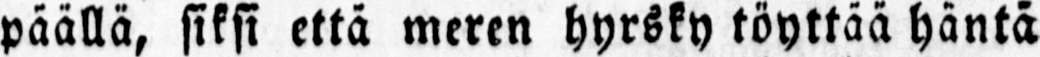päällä, siksi että meren hyrsky täyttää häntä
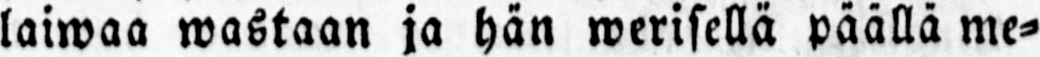laiwaa wastaan ja hän werisellä päällä me-
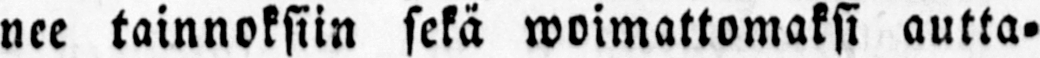nee tainnoksiin sekä woimattomaksi autta-
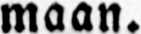maan.
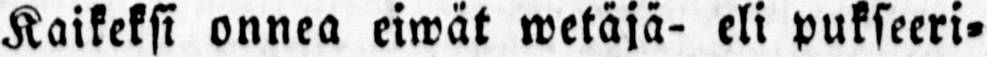Kaikeksi onnea eiwät wetäjä- eli pukseeri-
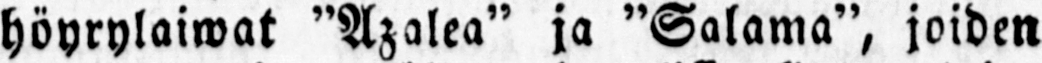höyrylaiwat "Azalea" ja "Salama", joiden
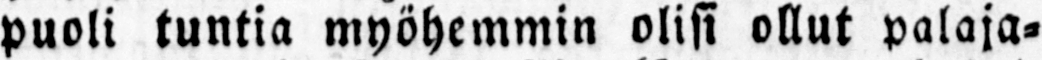puoli tuntia myöhemmin olisi ollut palaja-
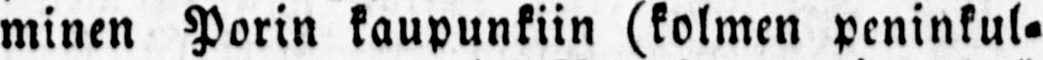minen Porin kaupunkiin (kolmen peninkul-
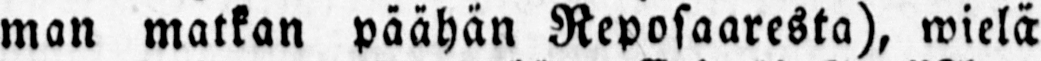man matkan päähän Reposaaresta), wielä
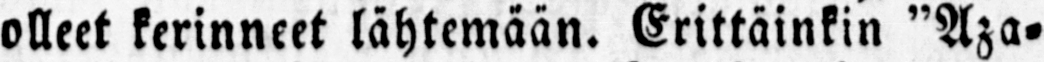olleet kerinneet lähtemään. Erittäinkin "Aza-
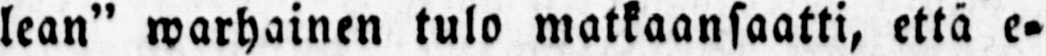lean" warhainen tulo matkaansaatti, että e-
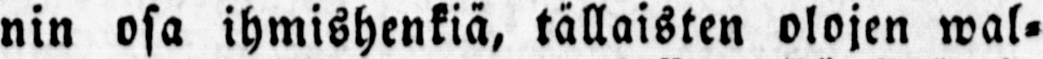nin osa ihmishenkiä, tällaisten olojen wal-
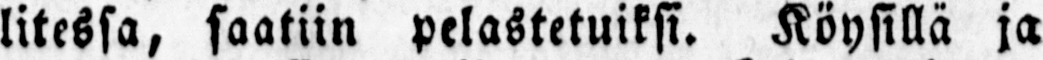litessa, saatiin pelastetuiksi. Köysillä ja
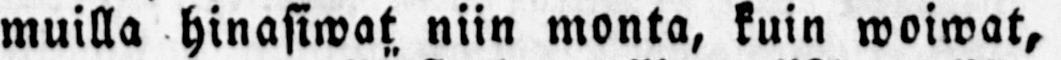muilla hinasiwat niin monta, kuin woiwat,
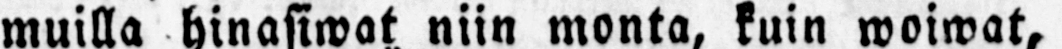itsensä alas "Österbotten"ilta "Azalea"lle,
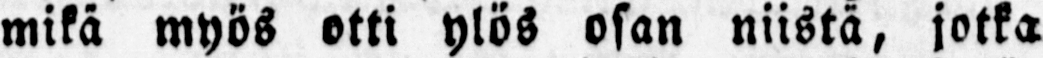mikä myös otti ylös osan niistä, jotka
